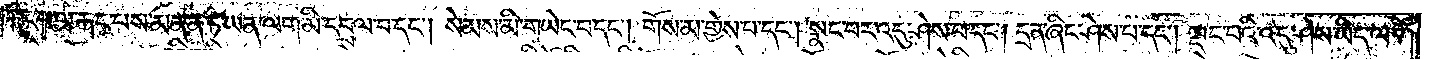རྐང་པ་ལ་རྐང་པས་མནན་ཏེ་ཡན་ལག་མི་དབྲལ་བ་དང༌། སེམས་མི་གཡེང་བ་དང༌། གོས་མ་གྱེས་པ་དང༌། སྣང་བར་འདུ་ཤེས་པ་དང༌། དྲན་ཞིང་ཤེས་པ་དང༌། ལྡང་བའི་འདུ་ཤེས་ཡིད་ལ་
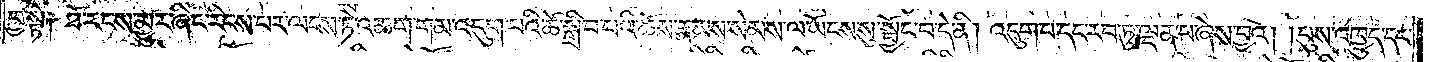བྱ་སྟེ༑ ཐོ་རངས་མྱུར་ཞིང་རིངས་པར་ལངས་ཏེ་འཆག་གམ་འདུག་པའི་ཚེ་སྒྲིབ་པའི་ཆོས་རྣམས་སེམས་ལ་ཡོངས་སུ་སྦྱོང་བ་དེ་ནི། འདུག་པ་དང་རབ་ཏུ་ལྡན་པ་ཞེས་བྱའོ། །པུས་འཁྱུད་དང་
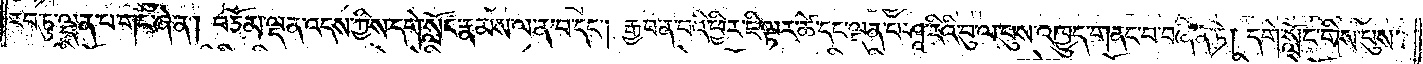རབ་ཏུ་ལྡན་པ་གང་ཞེ་ན། བཅོམ་ལྡན་འདས་ཀྱིས་དགེ་སློང་རྣམས་ལ་ན་བ་དང༌། རྒྱབ་ན་བའི་ཕྱིར་ཇི་ལྟར་ཚེ་དང་ལྡན་པ་ཤཱ་རིའི་བུ་ལ་པུས་འཁྱུད་གནང་བ་བཞིན་ཏེ། དགེ་སློང་གིས་པུས་
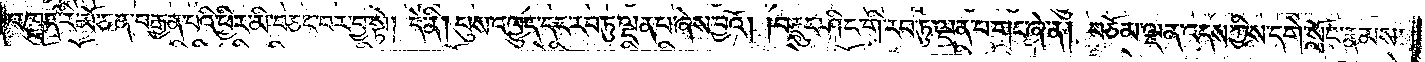འཁྱུད་རི་མོ་ཅན་བརྒྱན་པའི་ཕྱིར་མི་བཅང་བར་བྱ་སྟེ། དེ་ནི། པུས་འཁྱུད་དང་རབ་ཏུ་ལྡན་པ་ཞེས་བྱའོ། །བརྡུང་ཤིང་གི་རབ་ཏུ་ལྡན་པ་གང་ཞེ་ན། བཅོམ་ལྡན་འདས་ཀྱིས་དགེ་སློང་རྣམས་
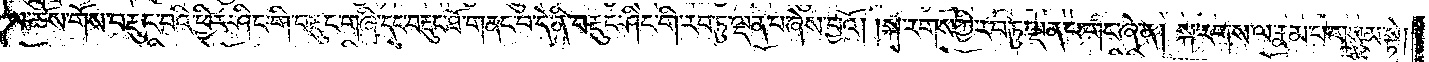ལ་ཆོས་གོས་བརྡུང་བའི་ཕྱིར་ཤིང་གི་བརྡུང་གཞི་དང་བརྡུང་ཐོ་གནང་བ་དེ་ནི་བརྡུང་ཤིང་གི་རབ་ཏུ་ལྡན་པ་ཞེས་བྱའོ། །སྐ་རགས་ཀྱི་རབ་ཏུ་ལྡན་པ་གང་ཞེ་ན། སྐ་རགས་ལ་རྣམ་པ་གསུམ་སྟེ།
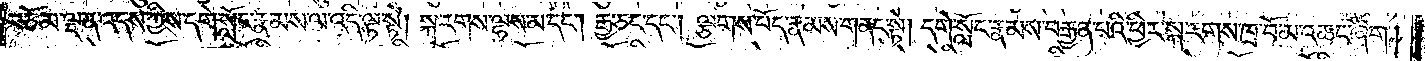བཅོམ་ལྡན་འདས་ཀྱིས་དགེ་སློང་རྣམས་ལ་འདི་ལྟ་སྟེ། སྐ་རགས་ལྷས་མ་དང༌། རྒྱ་ཅང་དང༌། ལྕགས་པོད་རྣམས་གནང་སྟེ། དགེ་སློང་རྣམས་བརྒྱན་པའི་ཕྱིར་སྐ་རགས་ཁྲ་བོ་མ་འཆང་ཞིག །
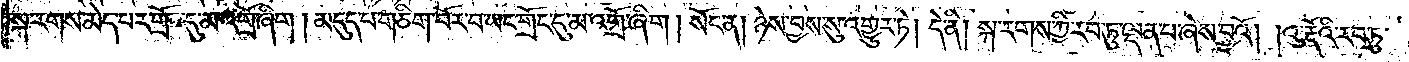སྐ་རགས་མེད་པར་གྲོང་དུ་མ་འགྲོ་ཞིག །མདུད་པ་གཅིག་བོར་བ་ཡང་གྲོང་དུ་མ་འགྲོ་ཞིག། སོང་ན། ཉེས་བྱས་སུ་འགྱུར་ཏེ། དེ་ནི། སྐ་རགས་ཀྱི་རབ་ཏུ་ལྡན་པ་ཞེས་བྱའོ། །འུ་རྡོའི་རབ་ཏུ་
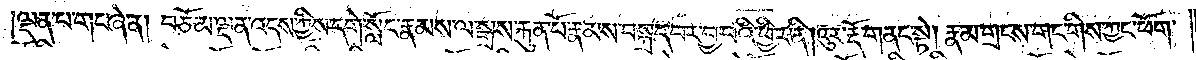ལྡན་པ་གང་ཞེ་ན། བཅོམ་ལྡན་འདས་ཀྱིས་དགེ་སློང་རྣམས་ལ་སྒྲས་རྐུན་པོ་རྣམས་བསྐྲད་པར་བྱ་བའི་ཕྱིར་ནི། འུར་རྡོ་གནང་སྟེ། རྣམ་གྲངས་གང་གིས་ཀྱང་ཕོག་
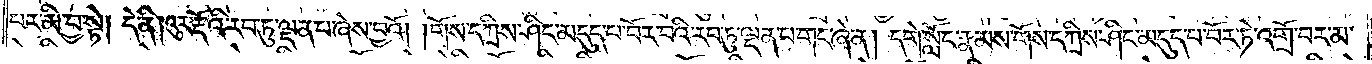པར་མི་བྱ་སྟེ། དེ་ནི། འུར་རྡོའི་རབ་ཏུ་ལྡན་པ་ཞེས་བྱའོ། །གོས་དཀྲིས་ཤིང་མདུད་པ་བོར་བའི་རབ་ཏུ་ལྡན་པ་གང་ཞེ་ན། དགེ་སློང་རྣམས་གོས་དཀྲིས་ཤིང་མདུད་པ་བོར་ཏེ་འགྲོ་བར་མ་
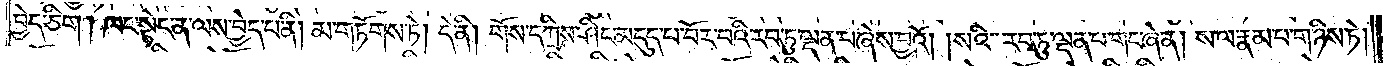བྱེད་ཅིག །ཁང་སྟེང་ན་ལས་བྱེད་པ་ནི། མ་གཏོགས་ཏེ། དེ་ནི། གོས་དཀྲིས་ཤིང་མདུད་པ་བོར་བའི་རབ་ཏུ་ལྡན་པ་ཞེས་བྱའོ། །སའི་རབ་ཏུ་ལྡན་པ་གང་ཞེ་ན། ས་ལ་རྣམ་པ་གཉིས་ཏེ།
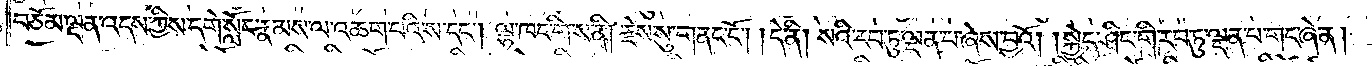བཅོམ་ལྡན་འདས་ཀྱིས་དགེ་སློང་རྣམས་ལ་འཆག་པའི་ས་དང༌། ལྷ་ཁང་གིས་ནི། རྗེས་སུ་གནང་ངོ༌། །དེ་ནི། སའི་རབ་ཏུ་ལྡན་པ་ཞེས་བྱའོ། །སྐྱེད་ཤིང་གི་རབ་ཏུ་ལྡན་པ་གང་ཞེ་ན།
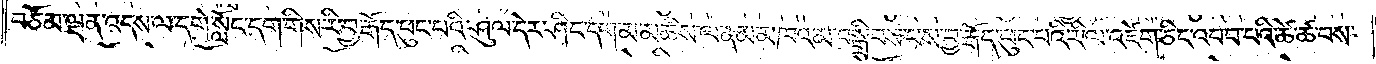བཅོམ་ལྡན་འདས་ལ་དགེ་སློང་དག་གིས་རི་བྱ་རྒོད་ཕུང་པའི་ཤུལ་དེར་ཤིང་དག་མ་མཆིས་ལ་ནམ་མཁའ་མ་བསྒྲིབས་པས་བྱ་རྒོད་ཕུང་པའི་རི་ལ་འཛེག་ཅིང་འབབ་པའི་ཚེ་ཚ་བས་
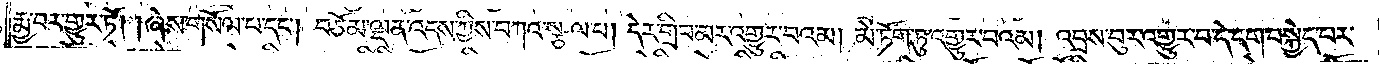རྨྱ་བར་གྱུར་ཏོ། །ཞེས་གསོལ་པ་དང༌། བཅོམ་ལྡན་འདས་ཀྱིས་བཀའ་སྩལ་པ། དེར་གྲིབ་མར་འགྱུར་བའམ། མེ་ཏོག་ཏུ་འགྱུར་བའམ། འབྲས་བུར་འགྱུར་བ་དེ་དག་བསྐྱེད་པར་
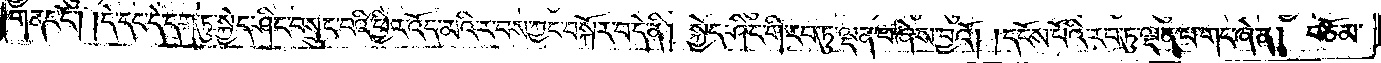གནང་ངོ༌། །དེ་དང་དེ་དག་ཏུ་སྐྱེད་ཤིང་བསྲུང་བའི་ཕྱིར་འོད་མའི་ར་བས་ཀྱང་བསྐོར་བ་དེ་ནི། སྐྱེད་ཤིང་གི་རབ་ཏུ་ལྡན་པ་ཞེས་བྱའོ། །དངོས་པོའི་རབ་ཏུ་ལྡན་པ་གང་ཞེ་ན། བཅོམ་
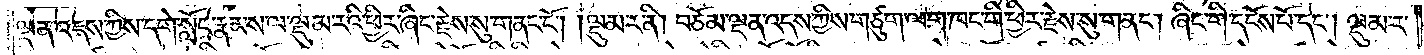ལྡན་འདས་ཀྱིས་དགེ་སློང་རྣམས་ལ་ལྡུམ་རའི་ཕྱིར་ཞིང་རྗེས་སུ་གནང་ངོ༌། །ལྡུམ་ར་ནི། བཅོམ་ལྡན་འདས་ཀྱིས་གཙུག་ལག་ཁང་གི་ཕྱིར་རྗེས་སུ་གནང༌། ཞིང་གི་དངོས་པོ་དང༌། ལྡུམ་ར་
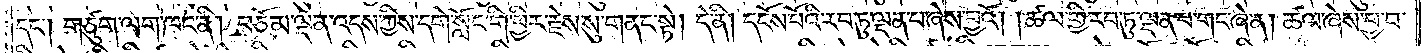དང༌། གཙུག་ལག་ཁང་ནི། བཅོམ་ལྡན་འདས་ཀྱིས་དགེ་སློང་གི་ཕྱིར་རྗེས་སུ་གནང་སྟེ། དེ་ནི། དངོས་པོའི་རབ་ཏུ་ལྡན་པ་ཞེས་བྱའོ། །ཚལ་གྱི་རབ་ཏུ་ལྡན་པ་གང་ཞེ་ན། ཚལ་ཞེས་བྱ་བ་
